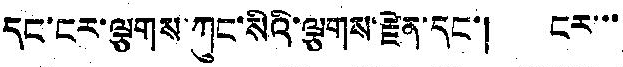དང་ངར་ལྕགས་ཀུང་སིའི་ལྕགས་རྗེན་དང་། ངར་་་
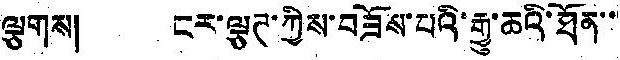ལྕགས། ངར་ལྕཊ་ཀྱིས་བཟོས་པའི་རྒྱུ་ཆའི་ཐོན་་
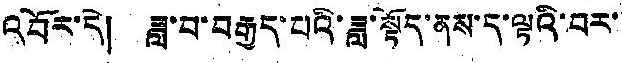འབོར་དེ། ཟླ་བ་བརྒྱད་པའི་ཟླ་སྟོད་ནས་ད་ལྟའི་བར་
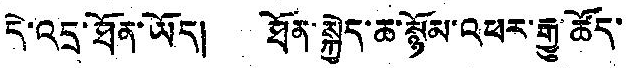དེ་འདྲ་ཐོན་ཡོད། ཐོན་སྐྱེད་ཆ་སྙོམ་འཕར་རྒྱུ་ཚོད་
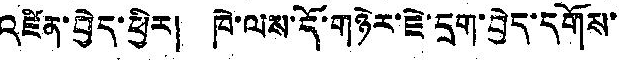འཛིན་བྱེད་ཕྱིར། ཁེ་ལས་དོ་གཉེར་ཇེ་དྲག་བྱེད་དགོས་
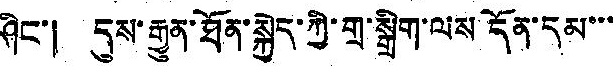ཤིང་། དུས་རྒྱུན་ཐོན་སྐྱེད་ཀྱི་གྲ་སྒྲིག་ལས་དོན་དམ་་་
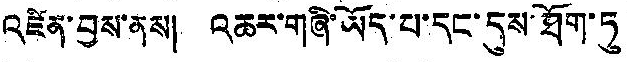འཛིན་བྱས་ནས། འཆར་གཞི་ཡོད་པ་དང་དུས་ཐོག་ཏུ
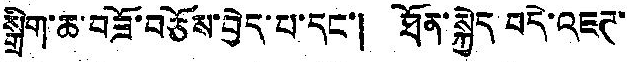སྒྲིག་ཆ་བཟོ་བཅོས་བྱེད་པ་དང་། ཐོན་སྐྱེད བདེ་འཇཊ་
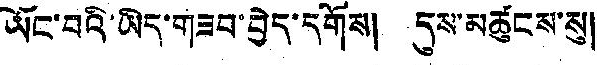ཡོང་བའི་ཡིད་གཟབ་བྱེད་དགོས། དུས་མཚུངས་སུ།
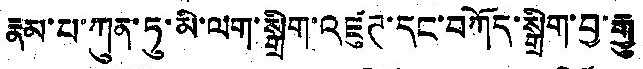རྣམ་པ་ཀུན་ཏུ་མི་ལག་སྒྲིག་འཛུཊ་དང་བཀོད་སྒྲིག་བྱ་རྒྱུ
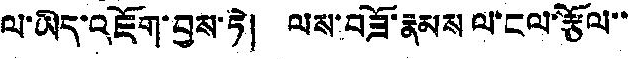ལ་ཡིད་འཇོག་བྱས་ཏེ། ལས་བཟོ་རྣམས ལ་ངལ་རྩོལ་་
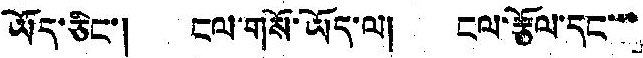ཡོད་ཅིང་། ངལ་གསོ་ཡོད་ལ། ངལ་རྩོལ་དང་་་
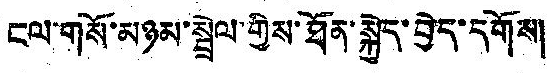ངལ་གསོ་མཉམ་སྦྲེལ་གྱིས་ཐོན་སྐྱེད་བྱེད་དགོས།
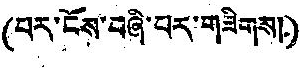(པར་ངོས་བཞི་པར་གཟིགས།)
